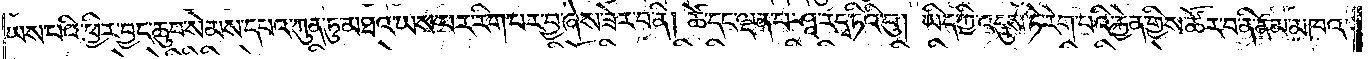ཡས་པའི་ཕྱིར་བྱང་ཆུབ་སེམས་དཔའ་ཀུན་ཏུ་མཐའ་ཡས་པར་རིག་པར་བྱ་ཞེས་ཟེར་བ་ནི། ཚེ་དང་ལྡན་པ་ཤཱ་ར་དྭ་ཏིའི་བུ། ཡིད་ཀྱི་འདུས་ཏེ་རེག་པའི་རྐྱེན་གྱིས་ཚོར་བ་ནི་ནམ་མཁའ་
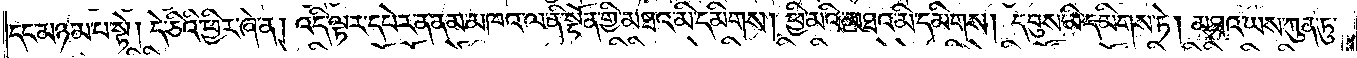དང་མཉམ་པ་སྟེ། དེ་ཅིའི་ཕྱིར་ཞེ་ན། འདི་ལྟར་དཔེར་ན་ནམ་མཁའ་ལ་ནི་སྔོན་གྱི་མཐའ་མི་དམིགས། ཕྱི་མའི་མཐའ་མི་དམིགས། དབུས་མི་དམིགས་ཏེ། མཐའ་ཡས་ཀུན་ཏུ་
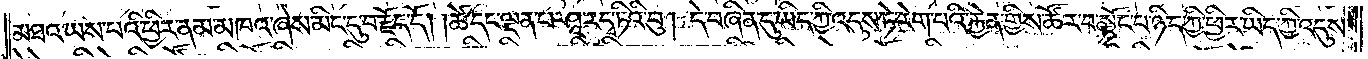མཐའ་ཡས་པའི་ཕྱིར་ནམ་མཁའ་ཞེས་མིང་དུ་བརྗོད་དོ། །ཚེ་དང་ལྡན་པ་ཤཱ་ར་དྭ་ཏིའི་བུ། དེ་བཞིན་དུ་ཡིད་ཀྱི་འདུས་ཏེ་རེག་པའི་རྐྱེན་གྱིས་ཚོར་བ་སྟོང་པ་ཉིད་ཀྱི་ཕྱིར་ཡིད་ཀྱི་འདུས་
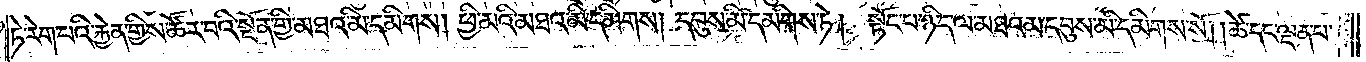ཏེ་རེག་པའི་རྐྱེན་གྱིས་ཚོར་བའི་སྔོན་གྱི་མཐའ་མི་དམིགས། ཕྱི་མའི་མཐའ་མི་དམིགས། དབུས་མི་དམིགས་ཏེ། སྟོང་པ་ཉིད་ལ་མཐའམ་དབུས་མི་དམིགས་སོ། །ཚེ་དང་ལྡན་པ་
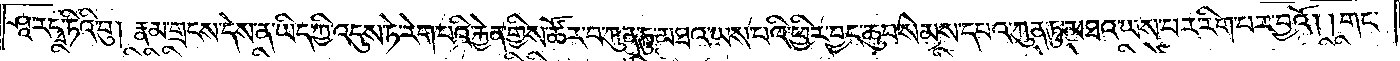ཤཱ་ར་དྭ་ཏིའི་བུ། རྣམ་གྲངས་དེས་ན་ཡིད་ཀྱི་འདུས་ཏེ་རེག་པའི་རྐྱེན་གྱིས་ཚོར་བ་ཀུན་ཏུ་མཐའ་ཡས་པའི་ཕྱིར་བྱང་ཆུབ་སེམས་དཔའ་ཀུན་ཏུ་མཐའ་ཡས་པར་རིག་པར་བྱའོ། །གང་
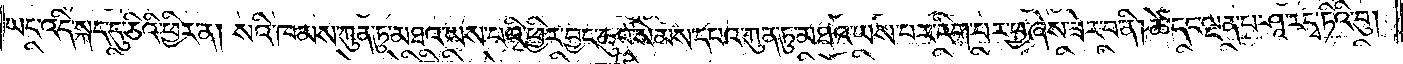ཡང་འདི་སྐད་དུ་ཅིའི་ཕྱིར་ན། སའི་ཁམས་ཀུན་ཏུ་མཐའ་ཡས་པའི་ཕྱིར་བྱང་ཆུབ་སེམས་དཔའ་ཀུན་ཏུ་མཐའ་ཡས་པར་རིག་པར་བྱ་ཞེས་ཟེར་བ་ནི། ཚེ་དང་ལྡན་པ་ཤཱ་ར་དྭ་ཏིའི་བུ།
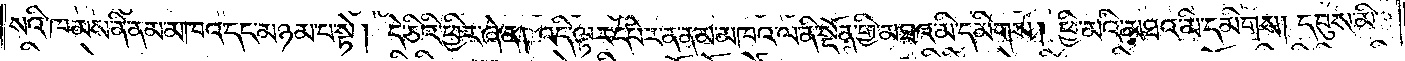སའི་ཁམས་ནི་ནམ་མཁའ་དང་མཉམ་པ་སྟེ། དེ་ཅིའི་ཕྱིར་ཞེ་ན། འདི་ལྟར་དཔེར་ན་ནམ་མཁའ་ལ་ནི་སྔོན་གྱི་མཐའ་མི་དམིགས། ཕྱི་མའི་མཐའ་མི་དམིགས། དབུས་མི་
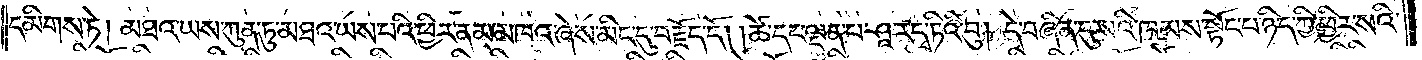དམིགས་ཏེ། མཐའ་ཡས་ཀུན་ཏུ་མཐའ་ཡས་པའི་ཕྱིར་ནམ་མཁའ་ཞེས་མིང་དུ་བརྗོད་དོ། །ཚེ་དང་ལྡན་པ་ཤཱ་ར་དྭ་ཏིའི་བུ། དེ་བཞིན་དུ་སའི་ཁམས་སྟོང་པ་ཉིད་ཀྱི་ཕྱིར་སའི་
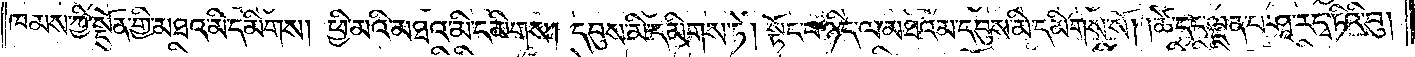ཁམས་ཀྱི་སྔོན་གྱི་མཐའ་མི་དམིགས། ཕྱི་མའི་མཐའ་མི་དམིགས། དབུས་མི་དམིགས་ཏེ། སྟོང་པ་ཉིད་ལ་མཐའམ་དབུས་མི་དམིགས་སོ། །ཚེ་དང་ལྡན་པ་ཤཱ་ར་དྭ་ཏིའི་བུ།
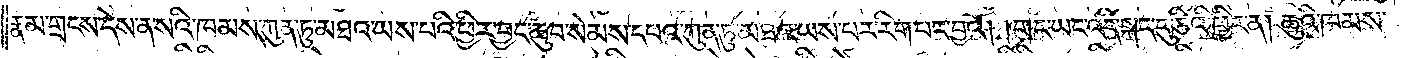རྣམ་གྲངས་དེས་ན་སའི་ཁམས་ཀུན་ཏུ་མཐའ་ཡས་པའི་ཕྱིར་བྱང་ཆུབ་སེམས་དཔའ་ཀུན་ཏུ་མཐའ་ཡས་པར་རིག་པར་བྱའོ། །གང་ཡང་འདི་སྐད་དུ་ཅིའི་ཕྱིར་ན། ཆུའི་ཁམས་
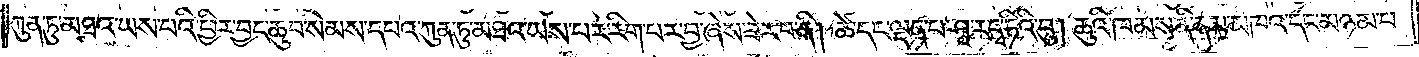ཀུན་ཏུ་མཐའ་ཡས་པའི་ཕྱིར་བྱང་ཆུབ་སེམས་དཔའ་ཀུན་ཏུ་མཐའ་ཡས་པར་རིག་པར་བྱ་ཞེས་ཟེར་བ་ནི། ཚེ་དང་ལྡན་པ་ཤཱ་ར་དྭ་ཏིའི་བུ། ཆུའི་ཁམས་ནི་ནམ་མཁའ་དང་མཉམ་པ་
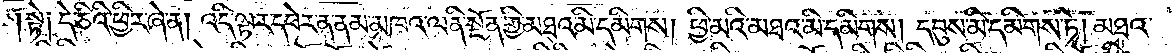སྟེ། དེ་ཅིའི་ཕྱིར་ཞེ་ན། འདི་ལྟར་དཔེར་ན་ནམ་མཁའ་ལ་ནི་སྔོན་གྱི་མཐའ་མི་དམིགས། ཕྱི་མའི་མཐའ་མི་དམིགས། དབུས་མི་དམིགས་ཏེ། མཐའ་
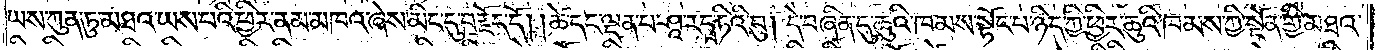ཡས་ཀུན་ཏུ་མཐའ་ཡས་པའི་ཕྱིར་ནམ་མཁའ་ཞེས་མིང་དུ་བརྗོད་དོ། །ཚེ་དང་ལྡན་པ་ཤཱ་ར་དྭ་ཏིའི་བུ། དེ་བཞིན་དུ་ཆུའི་ཁམས་སྟོང་པ་ཉིད་ཀྱི་ཕྱིར་ཆུའི་ཁམས་ཀྱི་སྔོན་གྱི་མཐའ་
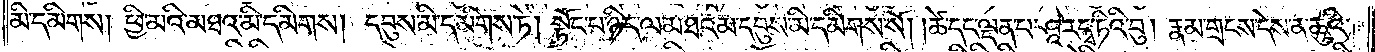མི་དམིགས། ཕྱི་མའི་མཐའ་མི་དམིགས། དབུས་མི་དམིགས་ཏེ། སྟོང་པ་ཉིད་ལ་མཐའམ་དབུས་མི་དམིགས་སོ། །ཚེ་དང་ལྡན་པ་ཤཱ་ར་དྭ་ཏིའི་བུ། རྣམ་གྲངས་དེས་ན་ཆུའི་
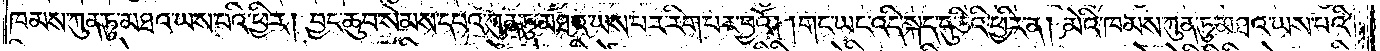ཁམས་ཀུན་ཏུ་མཐའ་ཡས་པའི་ཕྱིར། བྱང་ཆུབ་སེམས་དཔའ་ཀུན་ཏུ་མཐའ་ཡས་པར་རིག་པར་བྱའོ། །གང་ཡང་འདི་སྐད་དུ་ཅིའི་ཕྱིར་ན། མེའི་ཁམས་ཀུན་ཏུ་མཐའ་ཡས་པའི་
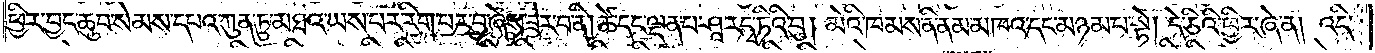ཕྱིར་བྱང་ཆུབ་སེམས་དཔའ་ཀུན་ཏུ་མཐའ་ཡས་པར་རིག་པར་བྱ་ཞེས་ཟེར་བ་ནི། ཚེ་དང་ལྡན་པ་ཤཱ་ར་དྭ་ཏིའི་བུ། མེའི་ཁམས་ནི་ནམ་མཁའ་དང་མཉམ་པ་སྟེ། དེ་ཅིའི་ཕྱིར་ཞེ་ན། འདི་
